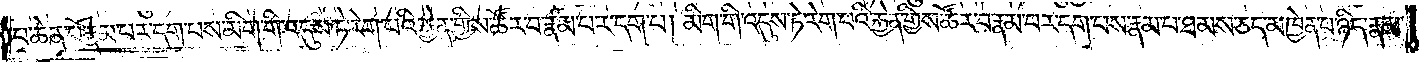པ་ཆེན་པོ་རྣམ་པར་དག་པས་མིག་གི་འདུས་ཏེ་རེག་པའི་རྐྱེན་གྱིས་ཚོར་བ་རྣམ་པར་དག་པ། མིག་གི་འདུས་ཏེ་རེག་པའི་རྐྱེན་གྱིས་ཚོར་བ་རྣམ་པར་དག་པས་རྣམ་པ་ཐམས་ཅད་མཁྱེན་པ་ཉིད་རྣམ་
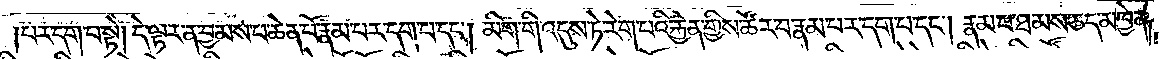པར་དག་པ་སྟེ། དེ་ལྟར་ན་བྱམས་པ་ཆེན་པོ་རྣམ་པར་དག་པ་དང༌། མིག་གི་འདུས་ཏེ་རེག་པའི་རྐྱེན་གྱིས་ཚོར་བ་རྣམ་པར་དག་པ་དང༌། རྣམ་པ་ཐམས་ཅད་མཁྱེན་
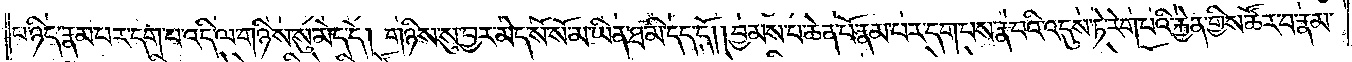པ་ཉིད་རྣམ་པར་དག་པ་འདི་ལ་གཉིས་སུ་མེད་དེ། གཉིས་སུ་བྱར་མེད་སོ་སོ་མ་ཡིན་ཐ་མི་དད་དོ། །བྱམས་པ་ཆེན་པོ་རྣམ་པར་དག་པས་རྣ་བའི་འདུས་ཏེ་རེག་པའི་རྐྱེན་གྱིས་ཚོར་བ་རྣམ་
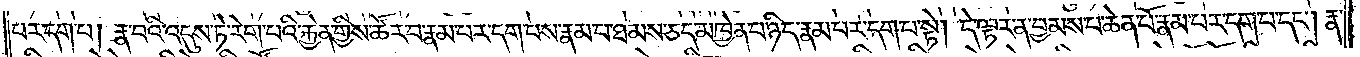པར་དག་པ། རྣ་བའི་འདུས་ཏེ་རེག་པའི་རྐྱེན་གྱིས་ཚོར་བ་རྣམ་པར་དག་པས་རྣམ་པ་ཐམས་ཅད་མཁྱེན་པ་ཉིད་རྣམ་པར་དག་པ་སྟེ། དེ་ལྟར་ན་བྱམས་པ་ཆེན་པོ་རྣམ་པར་དག་པ་དང༌། རྣ་
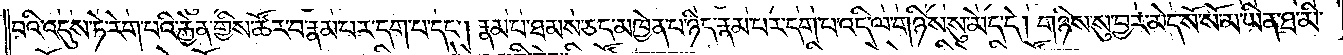བའི་འདུས་ཏེ་རེག་པའི་རྐྱེན་གྱིས་ཚོར་བ་རྣམ་པར་དག་པ་དང༌། རྣམ་པ་ཐམས་ཅད་མཁྱེན་པ་ཉིད་རྣམ་པར་དག་པ་འདི་ལ་གཉིས་སུ་མེད་དེ། གཉིས་སུ་བྱར་མེད་སོ་སོ་མ་ཡིན་ཐ་མི་
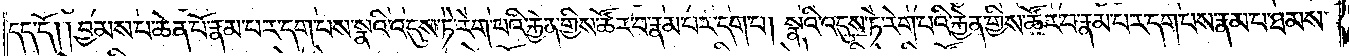དད་དོ། །བྱམས་པ་ཆེན་པོ་རྣམ་པར་དག་པས་སྣའི་འདུས་ཏེ་རེག་པའི་རྐྱེན་གྱིས་ཚོར་བ་རྣམ་པར་དག་པ། སྣའི་འདུས་ཏེ་རེག་པའི་རྐྱེན་གྱིས་ཚོར་བ་རྣམ་པར་དག་པས་རྣམ་པ་ཐམས་
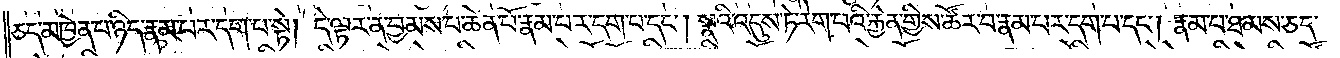ཅད་མཁྱེན་པ་ཉིད་རྣམ་པར་དག་པ་སྟེ། དེ་ལྟར་ན་བྱམས་པ་ཆེན་པོ་རྣམ་པར་དག་པ་དང༌། སྣའི་འདུས་ཏེ་རེག་པའི་རྐྱེན་གྱིས་ཚོར་བ་རྣམ་པར་དག་པ་དང༌། རྣམ་པ་ཐམས་ཅད་
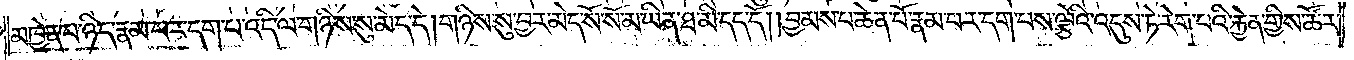མཁྱེན་པ་ཉིད་རྣམ་པར་དག་པ་འདི་ལ་གཉིས་སུ་མེད་དེ། གཉིས་སུ་བྱར་མེད་སོ་སོ་མ་ཡིན་ཐ་མི་དད་དོ། །བྱམས་པ་ཆེན་པོ་རྣམ་པར་དག་པས་ལྕེའི་འདུས་ཏེ་རེག་པའི་རྐྱེན་གྱིས་ཚོར་
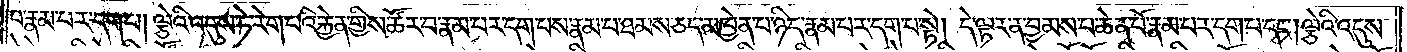བ་རྣམ་པར་དག་པ། ལྕེའི་འདུས་ཏེ་རེག་པའི་རྐྱེན་གྱིས་ཚོར་བ་རྣམ་པར་དག་པས་རྣམ་པ་ཐམས་ཅད་མཁྱེན་པ་ཉིད་རྣམ་པར་དག་པ་སྟེ། དེ་ལྟར་ན་བྱམས་པ་ཆེན་པོ་རྣམ་པར་དག་པ་དང༌། ལྕེའི་འདུས་
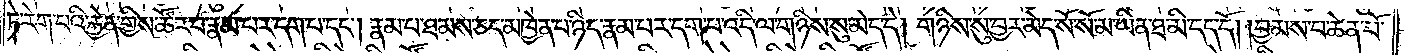ཏེ་རེག་པའི་རྐྱེན་གྱིས་ཚོར་བ་རྣམ་པར་དག་པ་དང༌། རྣམ་པ་ཐམས་ཅད་མཁྱེན་པ་ཉིད་རྣམ་པར་དག་པ་འདི་ལ་གཉིས་སུ་མེད་དེ། གཉིས་སུ་བྱར་མེད་སོ་སོ་མ་ཡིན་ཐ་མི་དད་དོ། །བྱམས་པ་ཆེན་པོ་
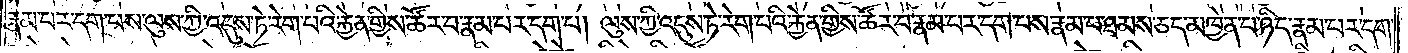རྣམ་པར་དག་པས་ལུས་ཀྱི་འདུས་ཏེ་རེག་པའི་རྐྱེན་གྱིས་ཚོར་བ་རྣམ་པར་དག་པ། ལུས་ཀྱི་འདུས་ཏེ་རེག་པའི་རྐྱེན་གྱིས་ཚོར་བ་རྣམ་པར་དག་པས་རྣམ་པ་ཐམས་ཅད་མཁྱེན་པ་ཉིད་རྣམ་པར་དག་
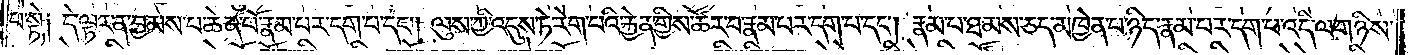པ་སྟེ༑ དེ་ལྟར་ན་བྱམས་པ་ཆེན་པོ་རྣམ་པར་དག་པ་དང༌། ལུས་ཀྱི་འདུས་ཏེ་རེག་པའི་རྐྱེན་གྱིས་ཚོར་བ་རྣམ་པར་དག་པ་དང༌། རྣམ་པ་ཐམས་ཅད་མཁྱེན་པ་ཉིད་རྣམ་པར་དག་པ་འདི་ལ་གཉིས་
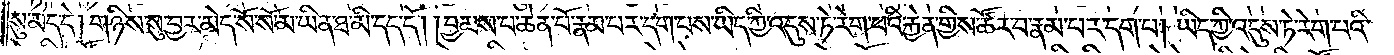སུ་མེད་དེ། གཉིས་སུ་བྱར་མེད་སོ་སོ་མ་ཡིན་ཐ་མི་དད་དོ། །བྱམས་པ་ཆེན་པོ་རྣམ་པར་དག་པས་ཡིད་ཀྱི་འདུས་ཏེ་རེག་པའི་རྐྱེན་གྱིས་ཚོར་བ་རྣམ་པར་དག་པ། ཡིད་ཀྱི་འདུས་ཏེ་རེག་པའི་
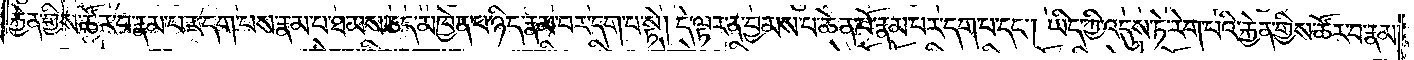རྐྱེན་གྱིས་ཚོར་བ་རྣམ་པར་དག་པས་རྣམ་པ་ཐམས་ཅད་མཁྱེན་པ་ཉིད་རྣམ་པར་དག་པ་སྟེ། དེ་ལྟར་ན་བྱམས་པ་ཆེན་པོ་རྣམ་པར་དག་པ་དང༌། ཡིད་ཀྱི་འདུས་ཏེ་རེག་པའི་རྐྱེན་གྱིས་ཚོར་བ་རྣམ་
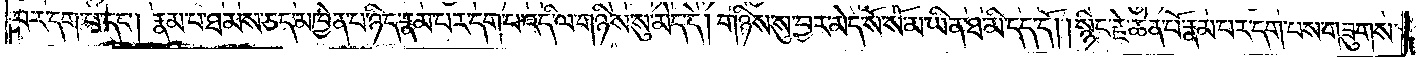པར་དག་པ་དང༌། རྣམ་པ་ཐམས་ཅད་མཁྱེན་པ་ཉིད་རྣམ་པར་དག་པ་འདི་ལ་གཉིས་སུ་མེད་དེ། གཉིས་སུ་བྱར་མེད་སོ་སོ་མ་ཡིན་ཐ་མི་དད་དོ། །སྙིང་རྗེ་ཆེན་པོ་རྣམ་པར་དག་པས་གཟུགས་
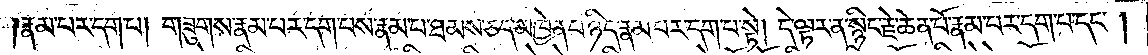རྣམ་པར་དག་པ། གཟུགས་རྣམ་པར་དག་པས་རྣམ་པ་ཐམས་ཅད་མཁྱེན་པ་ཉིད་རྣམ་པར་དག་པ་སྟེ། དེ་ལྟར་ན་སྙིང་རྗེ་ཆེན་པོ་རྣམ་པར་དག་པ་དང༌།
